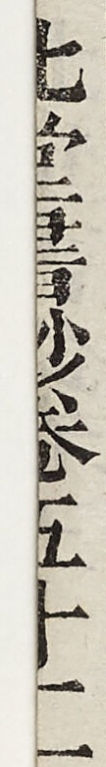北堂書鈔卷第五十二
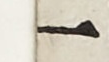一
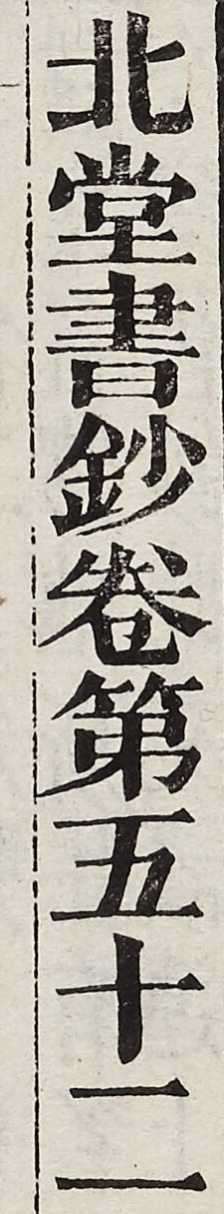北堂書鈔卷第五十二
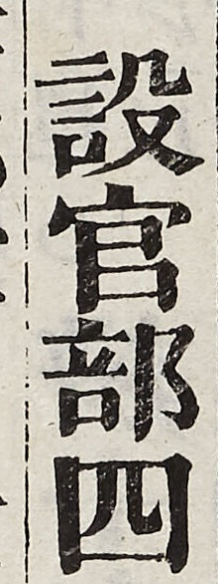設官部四
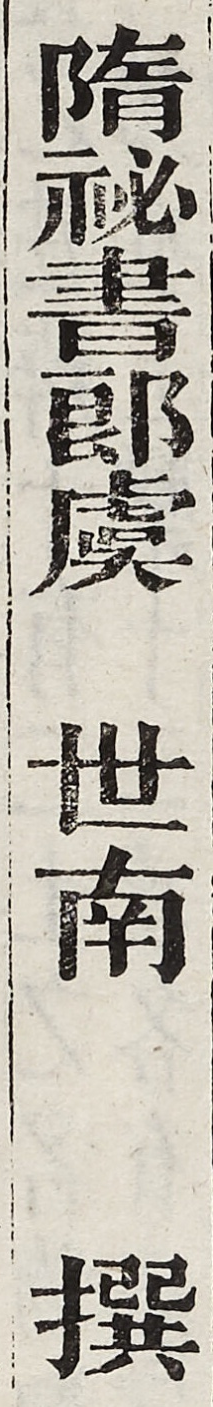隋秘書郎虞世南撰
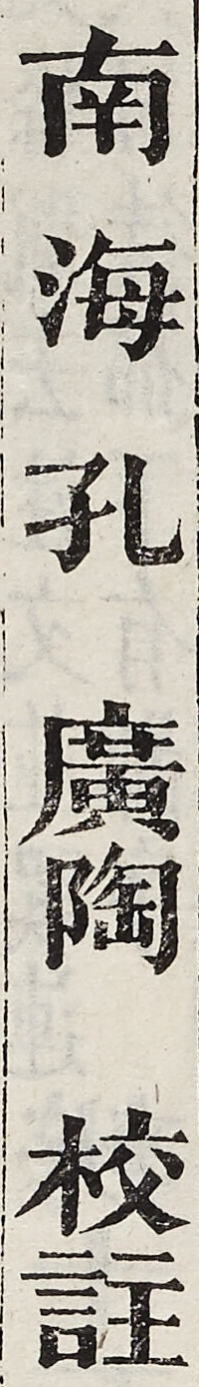南海孔廣陶校注
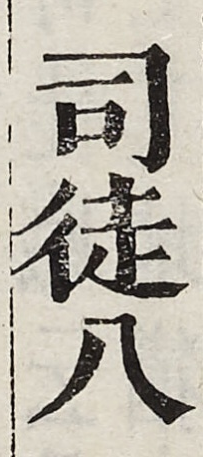司徒八
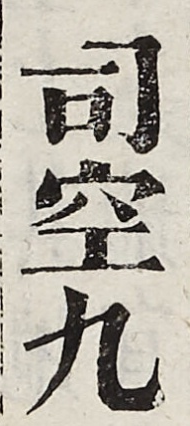司空九
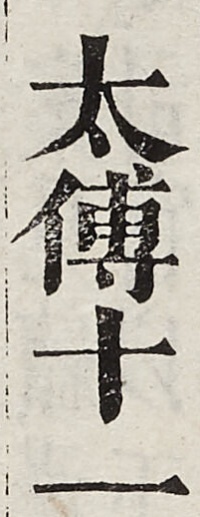太傅十一
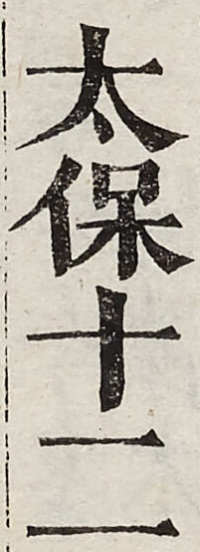太保十二
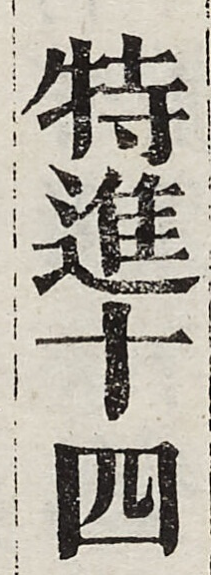特進十四
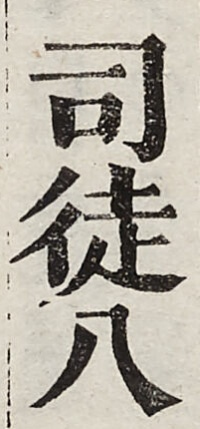司徒八
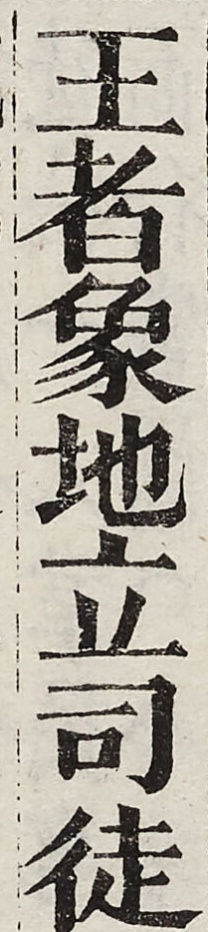王者象地立司徒
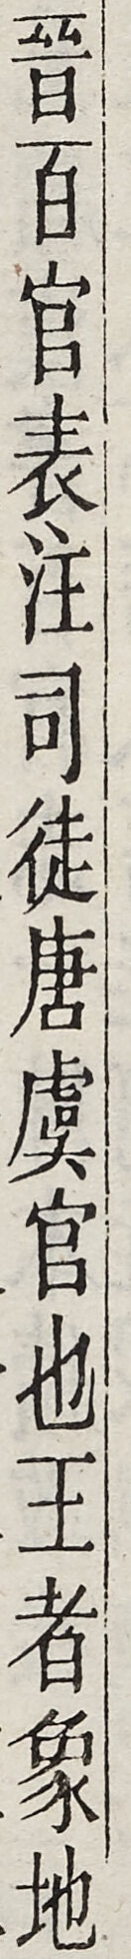晉百官表注司徒唐虞官也王者象地
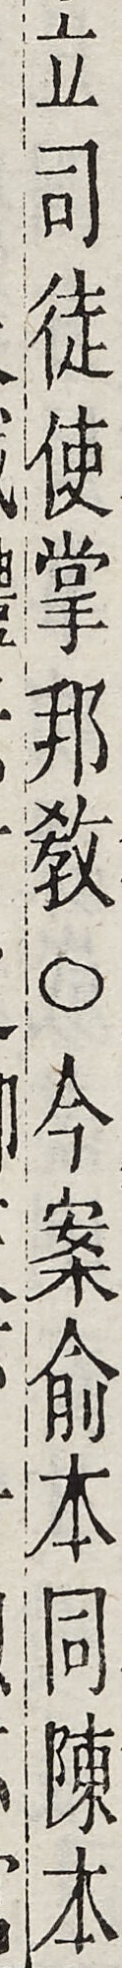立司徒使掌邦教○今案俞本同陳本
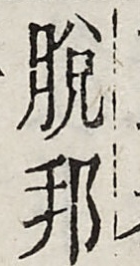脫邦
